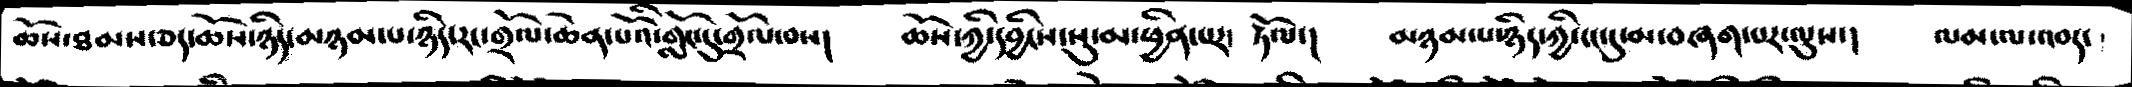ཆོས་ཐམས་ཅད་ཆོས་ཉིད་མཉམ་པ་ཉིད་རང་གྲོལ་ཆེན་པོའི་གློང་དུ་གྲོལ་བས།   ཆོས་ཀྱི་དབྱིངས་སུ་མ་ཕྱིན་པར་ རྟོལ་།   མཉམ་པ་ཉིད་ཀྱི་ངང་དུ་མ་བཞག་པར་ལུས་།  ལམ་ལ་འབད་
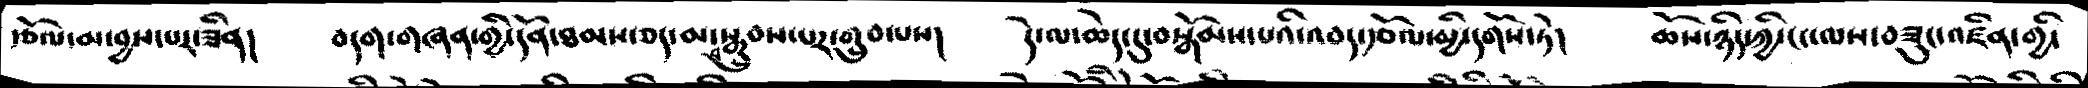རྩོལ་མ་བྱས་པར་ཟིན།  བདག་གཞན་གྱི་དོན་ཐམས་ཅད་མ་སྒྲུབས་པར་གྲུབ་པས།   དེ་ལ་ཆེད་དུ་བསྒོམས་པའི་འབད་རྩོལ་མྱི་དགོས་ཏེ།   ཆོས་ཉིདཀྱི་ངང་ལས་བཟུང་འཛིན་གྱི་
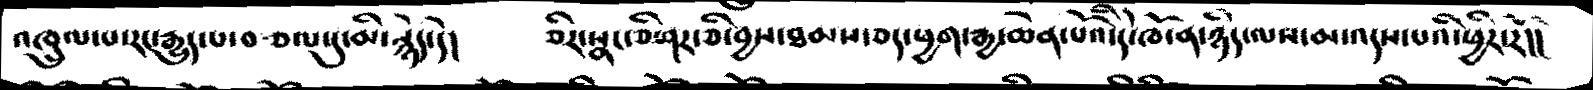འཁྲུལ་པ་རང་རྒྱུད་པ་བཙལ་དུ་མི་རྙེད་དེ།   ཅིར་སྣང་ཅི་ཤར་ཅི་བྱས་ཐམས་ཅད་ཕྱག་རྒྱ་ཆེན་པོའི་དེ་ཁོ་ན་ཉིད་ལས་མ་འདས་པའི་ཕྱིར་རོ།།
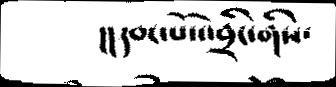།།དབང་པོའབྲིང་གིས་
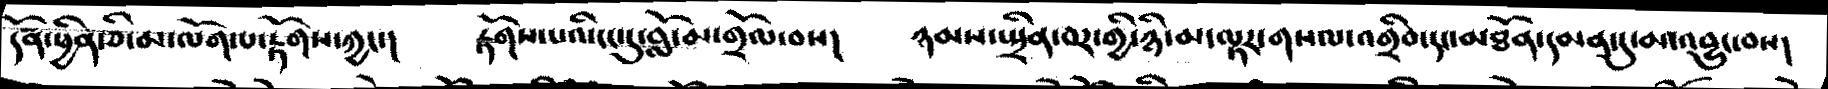དོན་ཕྱིན་ཅི་མ་ལོག་པ་རྟོགས་ཀྱང་།  རྟོགས་པའི་ངང་དུ་བློ་མ་གྲོལ་བས།  ཉམས་སྤྲིན་བར་གྱི་ཉི་མ་ལྟར་གསལ་འགྲིབ་དང་མཐོན་དམན་དུ་མ་འབྱུང་བས།
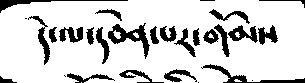དེ་ལ་དབེན་པར་གོམས
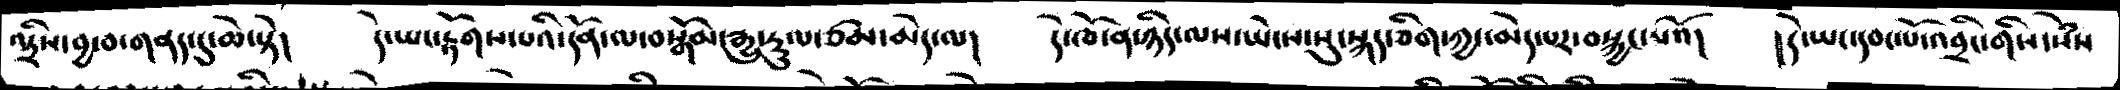འདྲིས་བྱ་བ་གནད་དུ་ཆེ་སྟེ།  དེ་ཡང་རྟོགས་པའི་དོན་ལ་བསྒོམ་རྒྱུ་རྡུལ་ཙམ་མེད་ལ།  དེ་ཁོ་ན་ཉིད་ལས་ཡེངས་སུ་སྐད་ཅིག་ཀྱང་མེད་པར་བསྐྱང་པའོ།  །དེ་ཡང་དབང་པོ་འབྲིང་གིས་སེཾས
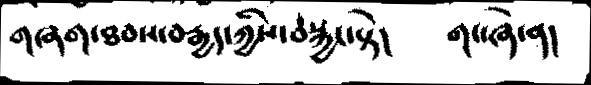གཞག་ཐབས་བརྒྱད་ཀྱིས་བསྐྱང་སྟེ།  གང་ཞེ་ན།
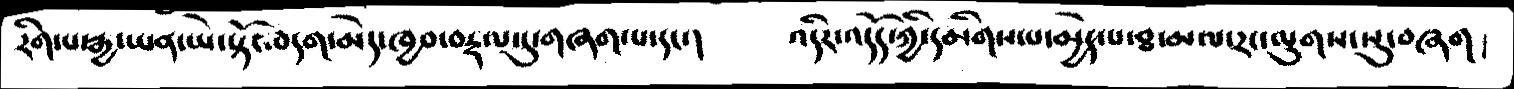རིག་པ་རྒྱ་ཡན་ཡེ་སྟོང་བདག་མེད་ཁྱབ་བརྡལ་དུ་གཞག་པ་དང་།   འདིར་འདོད་ཀྱི་དམིགས་པ་མྱེད་པ་ཐ་མལ་རང་ལུགས་སུ་བཞག།
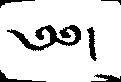༄༅།
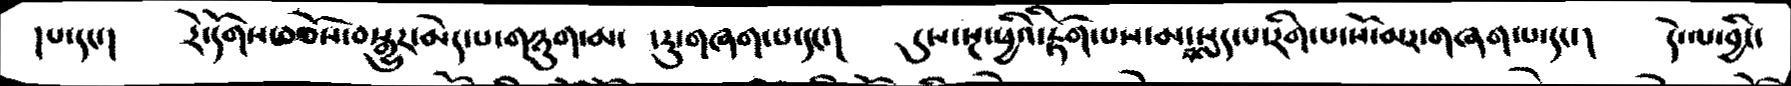།པ་དང་།  རེ་དོགས་བཅོས་བསྒྱུར་མེད་པ་གཉུག་མ་  ་རུ་གཞག་པ་དང་།   དུས་སྔ་ཕྱིའི་རྟོག་པས་མ་བསླད་པ་རིག་པ་སོ་མར་གཞག་པ་དང་།  དེ་ལ་བྱིང་
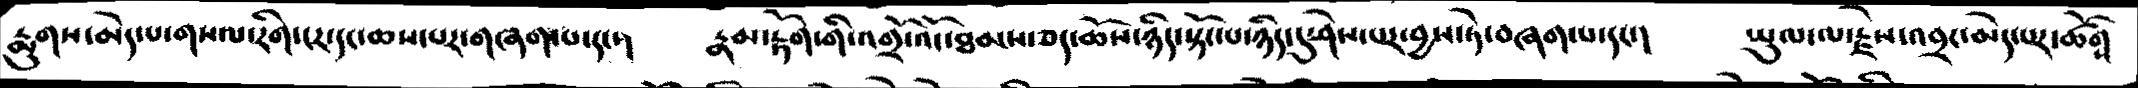རྨུགས་མེད་པ་གསལ་རིག་ངར་དང་ཆས་པར་གཞག་པ་དང་།   རྣམ་རྟོག་གི་འགྲོ་འོང་ཐམས་ཅད་ཆོས་ཉིད་སྟོང་པ་ཉིད་དུ་ཤེས་པར་བྱས་ཏེ་བཞག་པ་དང་།  ཡུལ་ལ་རྗེས་འབྲང་མེད་པར་ཚོགས
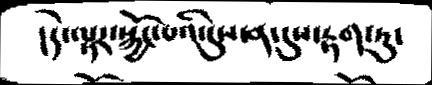།དེ་ལྟར་སྐྱོང་པའི་དུས་ན་དུས་རྟག་ཏུ་
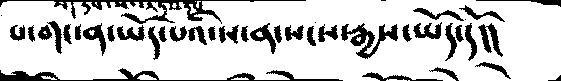པ་གང་ན་ཡོད་པའི་ས་ན་སངས་རྒྱས་ཡོད་དོ།།
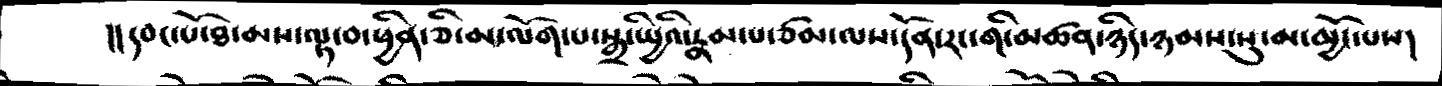།།དབང་པོ་ཐ་མས་ལྟ་བ་ཕྱིན་ཅི་མ་ལོག་པ་སྒྲ་སྤྱིའི་རྣམ་པ་ཙམ་ལས་དོན་རང་གི་མཚན་ཉིད་ཉམས་སུ་མ་མྱོང་པས།
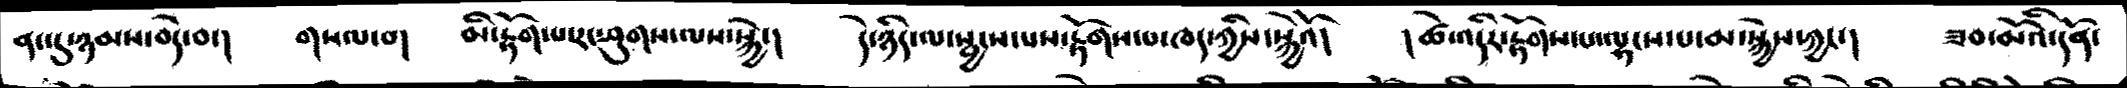ནང་དུ་ཉམས་བདེ་བ་།   གསལ་བ།   མི་རྟོག་པ་རང་ཤུགས་ལས་སྐྱེ་།  དེ་ཉིད་ལ་སྦྱངས་པས་རྟོགས་པ་ཁད་ཀྱིས་སྐྱེའོ།   །ཚེ་འདིར་རྟོགས་པ་ལྷངས་པ་མ་སྐྱེས་ཀྱང་།   ཟབ་མོའི་དོན་
